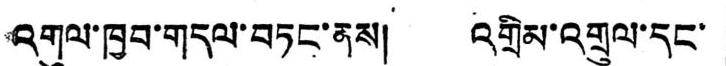འགུལ་ཁྱབ་གདལ་བཏང་ནས། འགྲིམ་འགྲུལ་དང་
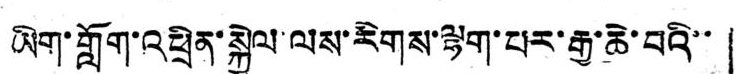ཡིག་གློག་འཕྲིན་སྐྱེལ་ལས་རིགས་ལྷག་པར་རྒྱ་ཆེ་བའི་་
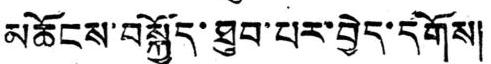མཆོངས་བསྐྱོད་ཐུབ་པར་བྱེད་དགོས།
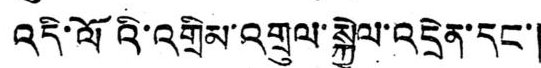འདི་ལོའི་འགྲིམ་འགྲུལ་སྐྱེལ་འདྲེན་དང་།
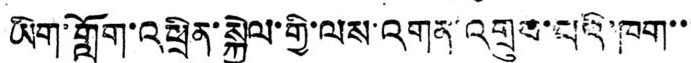ཡིག་གློག་འཕྲིན་སྐྱེལ་གྱི་ལས་འགན་འགྲུབ་པའི་ཁག་་་
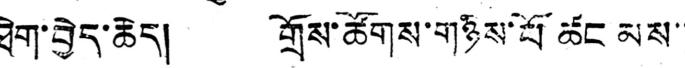ཐེག་བྱེད་ཆེད། གྲོས་ཚོགས་གཉིས་པོ ཚང མས་་
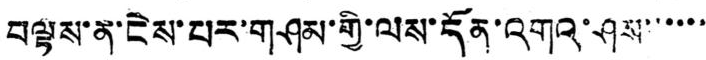བལྟས་ན་ངེས་པར་གཤམ་གྱི་ལས་དོན་འགའ་ཤས་་་་་་
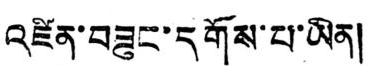འཛིན་བཟུང་དགོས་པ་ཡིན།
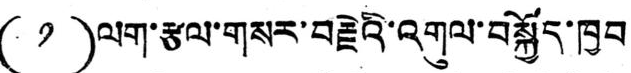( ༡ ) ལག་རྩལ་གསར་བརྗེའི་འགུལ་བསྐྱོད་ཁྱབ
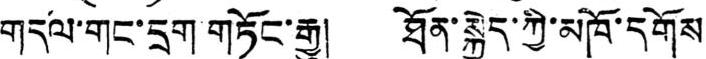གདལ་གང་དྲག གཏོང་རྒྱུ། ཐོན་སྐྱེད་ཀྱི་མཁོ་དགོས
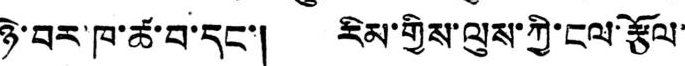ཉེ་བར་ཁ་ཚ་བ་དང་། རིམ་གྱིས་ལུས་ཀྱི་ངལ་རྩོལ་
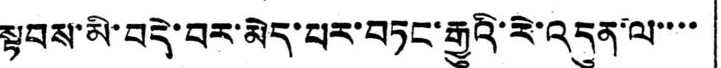སྟབས་མི་བདེ་བར་མེད་པར་བཏང་རྒྱུའི་རེ་འདུན་ལ་་་་
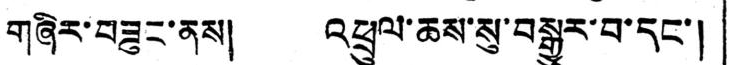གཞིར་བཟུང་ནས། འཕྲུལ་ཆས་སུ་བསྒྱུར་བ་དང་།
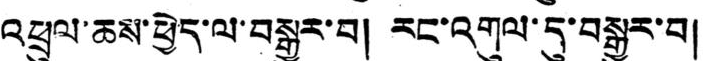འཕྲུལ་ཆས་ཕྱེད་ལ་བསྒྱུར་བ། རང་འགུལ་དུ་བསྒྱུར་བ།
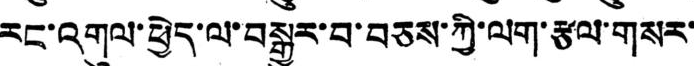རང་འགུལ་ཕྱེད་ལ་བསྒྱུར་བ་བཅས་ཀྱི་ལག་རྩལ་གསར་
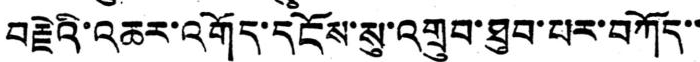བརྗེའི་འཆར་འགོད་དངོས་སུ་འགྲུབ་ཐུབ་པར་བཀོད་་
